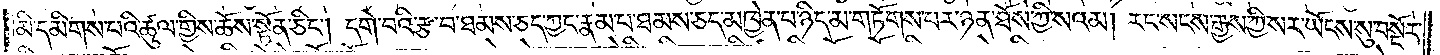མི་དམིགས་པའི་ཚུལ་གྱིས་ཆོས་སྟོན་ཅིང༌། དགེ་བའི་རྩ་བ་ཐམས་ཅད་ཀྱང་རྣམ་པ་ཐམས་ཅད་མཁྱེན་པ་ཉིད་མ་གཏོགས་པར་ཉན་ཐོས་ཀྱི་སའམ། རང་སངས་རྒྱས་ཀྱི་སར་ཡོངས་སུ་བསྔོར་
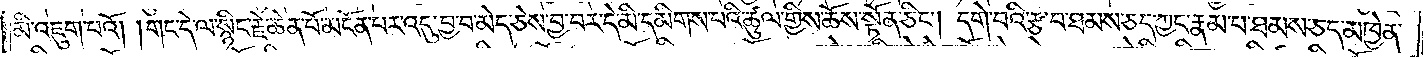མི་འཇུག་པའོ། །གང་དེ་ལ་སྙིང་རྗེ་ཆེན་པོ་མངོན་པར་འདུ་བྱ་བ་མེད་ཅེས་བྱ་བར་དེ་མི་དམིགས་པའི་ཚུལ་གྱིས་ཆོས་སྟོན་ཅིང༌། དགེ་བའི་རྩ་བ་ཐམས་ཅད་ཀྱང་རྣམ་པ་ཐམས་ཅད་མཁྱེན་
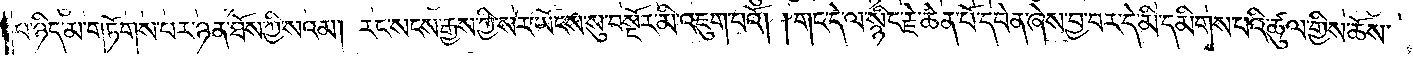པ་ཉིད་མ་གཏོགས་པར་ཉན་ཐོས་ཀྱི་སའམ། རང་སངས་རྒྱས་ཀྱི་སར་ཡོངས་སུ་བསྔོར་མི་འཇུག་པའོ། །གང་དེ་ལ་སྙིང་རྗེ་ཆེན་པོ་དབེན་ཞེས་བྱ་བར་དེ་མི་དམིགས་པའི་ཚུལ་གྱིས་ཆོས་
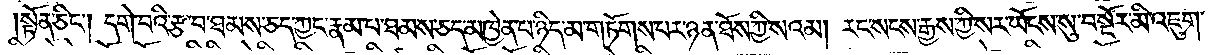སྟོན་ཅིང༌། དགེ་བའི་རྩ་བ་ཐམས་ཅད་ཀྱང་རྣམ་པ་ཐམས་ཅད་མཁྱེན་པ་ཉིད་མ་གཏོགས་པར་ཉན་ཐོས་ཀྱི་སའམ། རང་སངས་རྒྱས་ཀྱི་སར་ཡོངས་སུ་བསྔོར་མི་འཇུག་
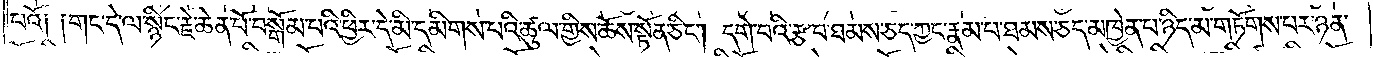པའོ༑ ༑གང་དེ་ལ་སྙིང་རྗེ་ཆེན་པོ་བསྒོམ་པའི་ཕྱིར་དེ་མི་དམིགས་པའི་ཚུལ་གྱིས་ཆོས་སྟོན་ཅིང༌། དགེ་བའི་རྩ་བ་ཐམས་ཅད་ཀྱང་རྣམ་པ་ཐམས་ཅད་མཁྱེན་པ་ཉིད་མ་གཏོགས་པར་ཉན་
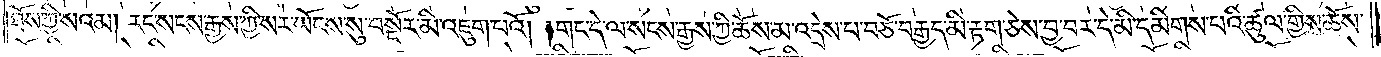ཐོས་ཀྱི་སའམ། རང་སངས་རྒྱས་ཀྱི་སར་ཡོངས་སུ་བསྔོར་མི་འཇུག་པའོ། །གང་དེ་ལ་སངས་རྒྱས་ཀྱི་ཆོས་མ་འདྲེས་པ་བཅོ་བརྒྱད་མི་རྟག་ཅེས་བྱ་བར་དེ་མི་དམིགས་པའི་ཚུལ་གྱིས་ཆོས་
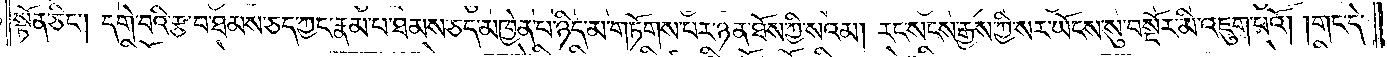སྟོན་ཅིང༌། དགེ་བའི་རྩ་བ་ཐམས་ཅད་ཀྱང་རྣམ་པ་ཐམས་ཅད་མཁྱེན་པ་ཉིད་མ་གཏོགས་པར་ཉན་ཐོས་ཀྱི་སའམ། རང་སངས་རྒྱས་ཀྱི་སར་ཡོངས་སུ་བསྔོར་མི་འཇུག་པའོ། །གང་དེ་
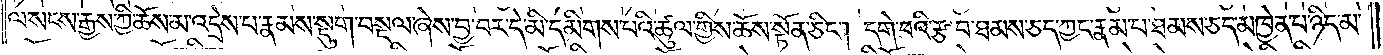ལ་སངས་རྒྱས་ཀྱི་ཆོས་མ་འདྲེས་པ་རྣམས་སྡུག་བསྔལ་ཞེས་བྱ་བར་དེ་མི་དམིགས་པའི་ཚུལ་གྱིས་ཆོས་སྟོན་ཅིང༌། དགེ་བའི་རྩ་བ་ཐམས་ཅད་ཀྱང་རྣམ་པ་ཐམས་ཅད་མཁྱེན་པ་ཉིད་མ་
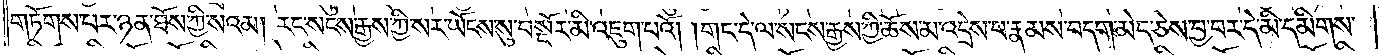གཏོགས་པར་ཉན་ཐོས་ཀྱི་སའམ། རང་སངས་རྒྱས་ཀྱི་སར་ཡོངས་སུ་བསྔོར་མི་འཇུག་པའོ། །གང་དེ་ལ་སངས་རྒྱས་ཀྱི་ཆོས་མ་འདྲེས་པ་རྣམས་བདག་མེད་ཅེས་བྱ་བར་དེ་མི་དམིགས་
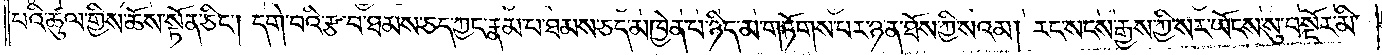པའི་ཚུལ་གྱིས་ཆོས་སྟོན་ཅིང༌། དགེ་བའི་རྩ་བ་ཐམས་ཅད་ཀྱང་རྣམ་པ་ཐམས་ཅད་མཁྱེན་པ་ཉིད་མ་གཏོགས་པར་ཉན་ཐོས་ཀྱི་སའམ། རང་སངས་རྒྱས་ཀྱི་སར་ཡོངས་སུ་བསྔོར་མི་
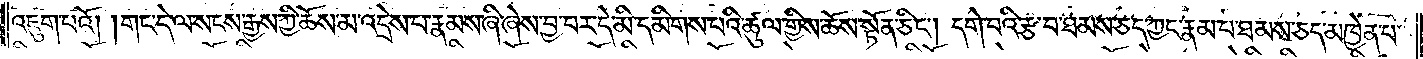འཇུག་པའོ། །གང་དེ་ལ་སངས་རྒྱས་ཀྱི་ཆོས་མ་འདྲེས་པ་རྣམས་ཞི་ཞེས་བྱ་བར་དེ་མི་དམིགས་པའི་ཚུལ་གྱིས་ཆོས་སྟོན་ཅིང༌། དགེ་བའི་རྩ་བ་ཐམས་ཅད་ཀྱང་རྣམ་པ་ཐམས་ཅད་མཁྱེན་པ་
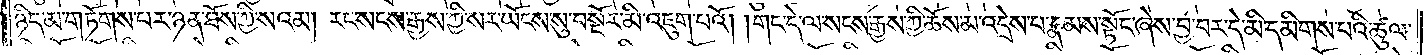ཉིད་མ་གཏོགས་པར་ཉན་ཐོས་ཀྱི་སའམ། རང་སངས་རྒྱས་ཀྱི་སར་ཡོངས་སུ་བསྔོར་མི་འཇུག་པའོ། །གང་དེ་ལ་སངས་རྒྱས་ཀྱི་ཆོས་མ་འདྲེས་པ་རྣམས་སྟོང་ཞེས་བྱ་བར་དེ་མི་དམིགས་པའི་ཚུལ་
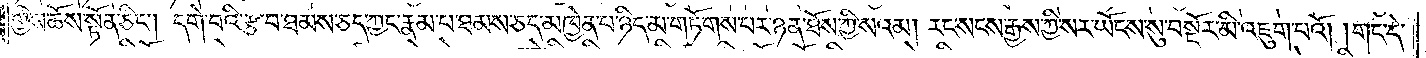གྱིས་ཆོས་སྟོན་ཅིང༌། དགེ་བའི་རྩ་བ་ཐམས་ཅད་ཀྱང་རྣམ་པ་ཐམས་ཅད་མཁྱེན་པ་ཉིད་མ་གཏོགས་པར་ཉན་ཐོས་ཀྱི་སའམ། རང་སངས་རྒྱས་ཀྱི་སར་ཡོངས་སུ་བསྔོར་མི་འཇུག་པའོ། །གང་དེ་
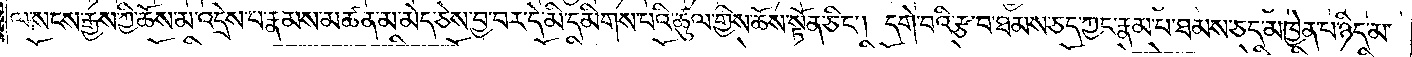ལ་སངས་རྒྱས་ཀྱི་ཆོས་མ་འདྲེས་པ་རྣམས་མཚན་མ་མེད་ཅེས་བྱ་བར་དེ་མི་དམིགས་པའི་ཚུལ་གྱིས་ཆོས་སྟོན་ཅིང༌། དགེ་བའི་རྩ་བ་ཐམས་ཅད་ཀྱང་རྣམ་པ་ཐམས་ཅད་མཁྱེན་པ་ཉིད་མ་
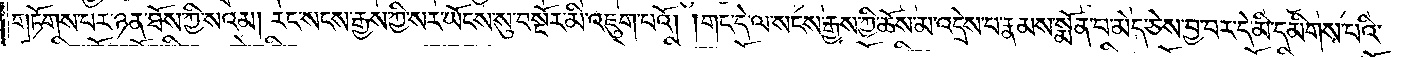གཏོགས་པར་ཉན་ཐོས་ཀྱི་སའམ། རང་སངས་རྒྱས་ཀྱི་སར་ཡོངས་སུ་བསྔོར་མི་འཇུག་པའོ། །གང་དེ་ལ་སངས་རྒྱས་ཀྱི་ཆོས་མ་འདྲེས་པ་རྣམས་སྨོན་པ་མེད་ཅེས་བྱ་བར་དེ་མི་དམིགས་པའི་
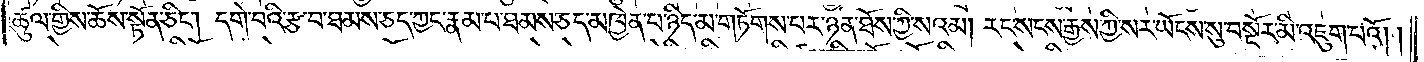ཚུལ་གྱིས་ཆོས་སྟོན་ཅིང༌། དགེ་བའི་རྩ་བ་ཐམས་ཅད་ཀྱང་རྣམ་པ་ཐམས་ཅད་མཁྱེན་པ་ཉིད་མ་གཏོགས་པར་ཉན་ཐོས་ཀྱི་སའམ། རང་སངས་རྒྱས་ཀྱི་སར་ཡོངས་སུ་བསྔོར་མི་འཇུག་པའོ། །
